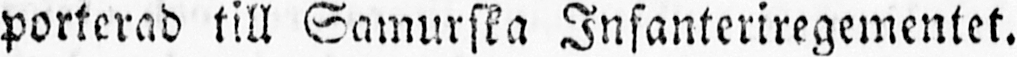porterad till Samurska Infanteriregementet.
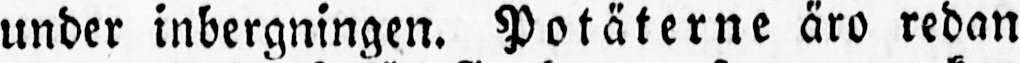under inbergningen. Potäterne äro redan
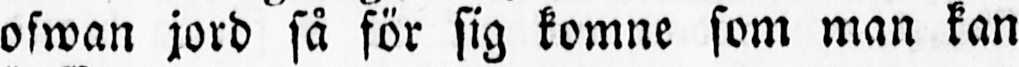ofwan jord så för sig komne som man kan
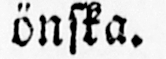önska.
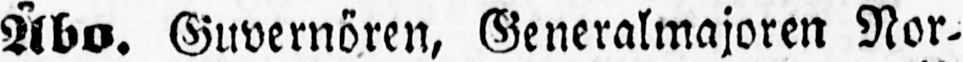Åbo. Guvernören, Generalmajoren Nor-
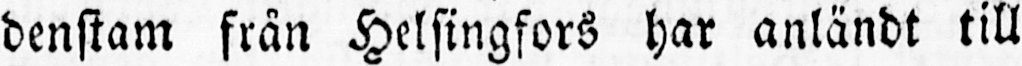denstam från Helsingfors har anländt till
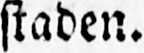staden.
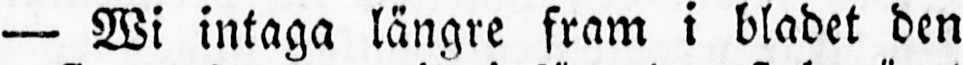— Wi intaga längre fram i bladet den
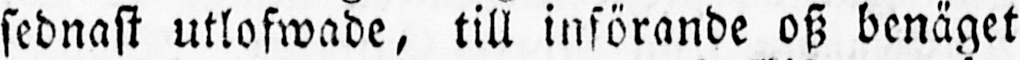sednast utlofwade, till införande osz benäget
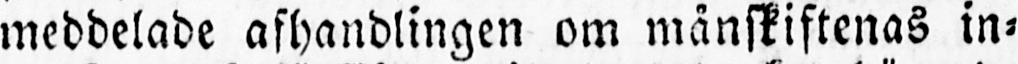meddelade afhandlingen om månskiftenas in-
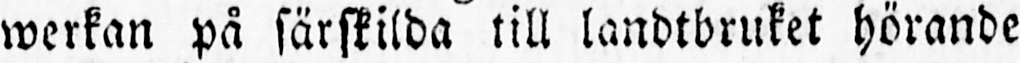werkan på särskilda till landtbruket hörande
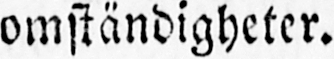omständigheter.
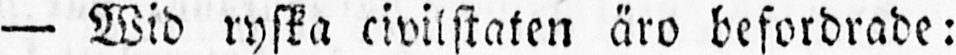— Wid ryska civilstaten äro befordrade:
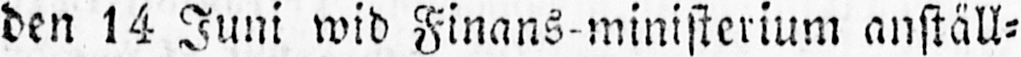den 14 Juni wid Finans-ministerium anställ-
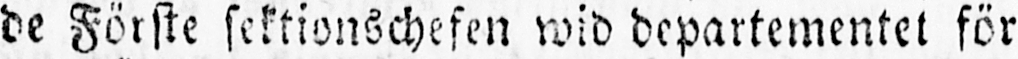de Förste sektionschefen wid departementet för
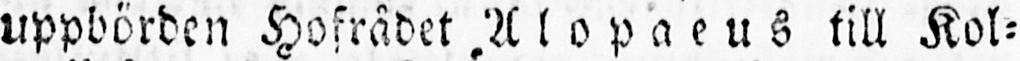uppbörden Hofrådet Alo paeus till Kol-
